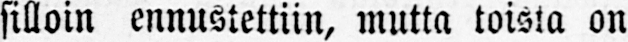silloin ennustettiin, mutta toista on
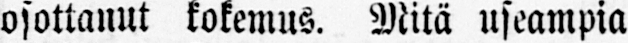osottanut kokemus. Mitä useampia
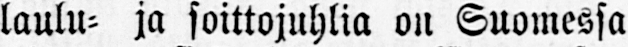laulu- ja soittojuhlia on Suomessa
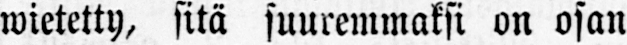wietetty, sitä suuremmaksi on osan
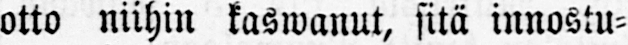otto niihin kaswanut, sitä innostu-
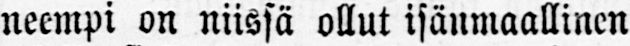neempi on niissä ollut isänmaallinen
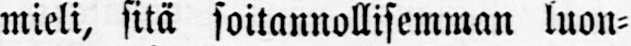mieli, sitä soitannollisemman luon-
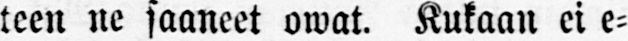teen ne saaneet owat. Kukaan ei e-
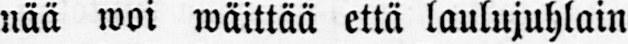nää woi wäittää että laulujuhlain
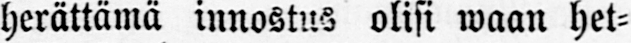herättämä innostus olisi waan het-
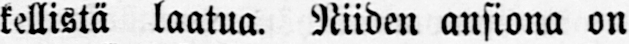kellistä laatua. Niiden ansiona on
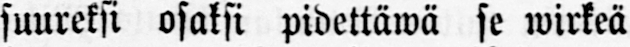suureksi osaksi pideltäwä se wirkeä
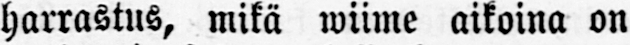harrastus, mikä wiime aikoina on
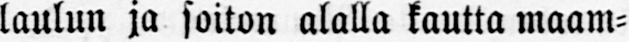laulun ja soiton alalla kautta maam-
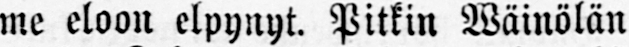me eloon elpynyt. Pitkin Wäinölän
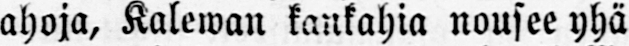ahoja, Kalewan kankahia nousee yhä
